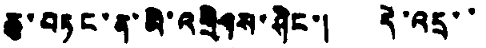ཆུ་བཏང་ན་མི་འགྲིགས་ཤིང་། དེ་འདྲ་་
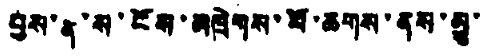བྱས་ན་ས་ངོས་མཁྲེགས་པོ་ཆགས་ནས་མྱུ་
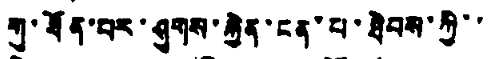གུ་ཐོན་པར་ཤུགས་རྐྱེན་ངན་པ་ཐེབས་ཀྱི་་
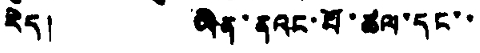རེད། ཡིན་ནའང་པོ་ཚལ་དང་་
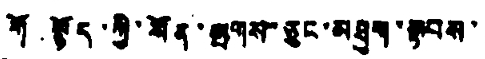གོ སྙོད་ཀྱི་སོན་ལྤགས་ཅུང་མཐུག་སྟབས་
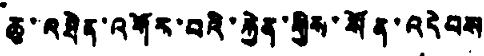ཆུ་འཐེན་འགོར་བའི་རྐྱེན་གྱིས་སོན་འདེབས
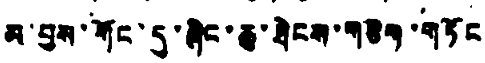མ་བྱས་གོང་དུ་ཞིང་ཆུ་ཐེངས་གཅིག་གཏོང
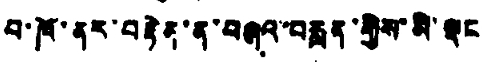བ་ཁོ་ནར་བརྟེན་ན་བཞའ་བརླན་གྱིས་མི་ལྡང
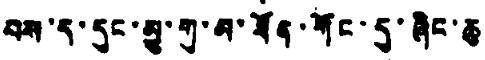བས་ད་དུང་མྱུ་གུ་མ་ཐོན་གོང་དུ་ཞིང་ཆུ
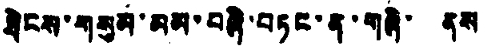ཐེངས་གསུམ་མམ་བཞི་བཏང་ན་གཞི་ ནས
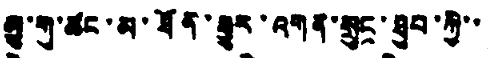མྱུ་གུ་ཚང་མ་ཐོན་རྒྱུར་འགན་སྲུང་ཐུབ་ཀྱི་་
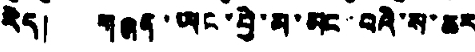རེད། གཞན་ཡང་བྱེ་མ་མང་བའི་ས་ཆར
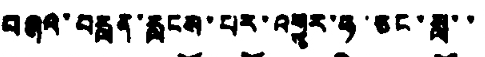བཞའ་བརླན་རླངས་པར་འགྱུར་ཧ་ཅང་ཟླ་་
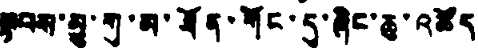སྟབས་མྱུ་གུ་མ་ཐོན་གོང་དུ་ཞིང་ཆུ་འཚོད
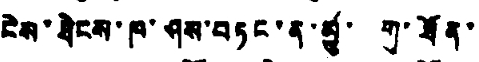ངེས་ཐེངས་ཁ་ཤས་བཏང་ན་མྱུ་ གུ་ཐོན་
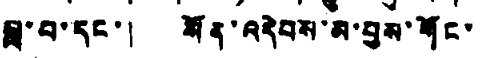སླ་བ་དང་། སོན་འདེབས་མ་བྱས་གོང་
